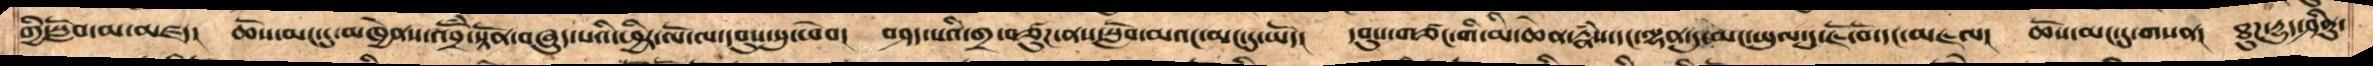གྱི་སློབ་མ་མཛད   ཆོས་མང་དུ་མཁྱེནས་འབྲོཾ་སྟོན་བཞུད་པའི་ཕྱིར་ལོ་ལ་དབུས་སུ་ཕེབ།    བཤད་པའི་གྲ་བཙུཌ་ནས་སློབ་མའང་མང་དུ་ཡོད།   དབུས་གཙང་གི་མི་ཆེན་རྣཾས་དང་ལྷན་དུ་མང་ཡུལ་དུ་ཇོ་བོ་དང་མཇལ།     ཆོས་མང་དུ་གསན།  ཐུཌ་དྱུད་ཤིནུ་
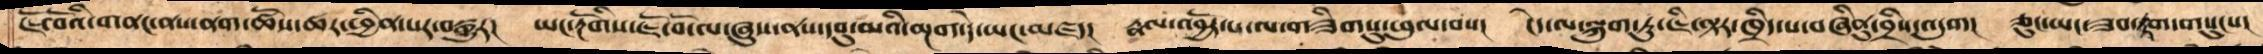ཇོ་བོའི་གནང་ནས་ནག་ཚོས་ཚར་ཕྱིན་པར་བསྒྱུར།    ཡང་རྔོགིས་ཇོ་བོ་ལ་ཞུས་ནས་དབུ་མའི་མྔག་དེ་ཡང་་མཛད།   རྣལ་འབྱོར་པ་ལ་གཟིགསུ་ཕུལ་བས།    ངེད་ལ་ལྐུག་ཏུ་ཇི་ལྟར་ཁྲིད་པ་བཞིནུ་བྲིས་འདུག།    ཅུང་ཡང་ཟབ་རྟག་གསུངས།
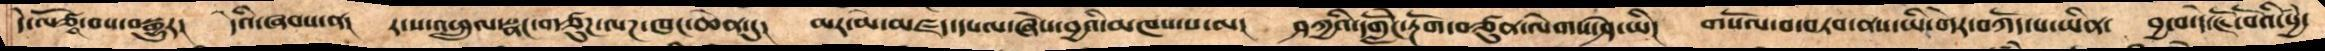དེ་ལོ་ཙཱ་བས་བསྒྱུར།   དེའི་ཞབས་ན།   ར་ས་འཕྲུལ་སྣང་གཙུཌ་ལཌ་ཁང་ཆེན་དུ།   མར་མེ་མཛད་དཔལ་ཞེས་བྱའི་མཁས་པ་ལ།   ཤཀྱའི་དགློེང་རྔོག་བཙུན་ལེགས་ཤེ་ཡིས།   གསོལ་བ་བཏབ་ནས་ཡི་གེར་བཀོད་པ་ཡིན།   བྱ་བ་དེ་ཇོ་བོའི་སྱཾ་
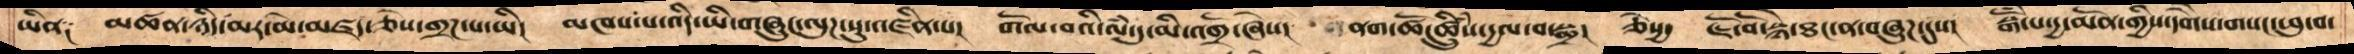ཡིན༑   མཚན་ཉིད་མར་མེ་མཛད་ཅེས་གྲཌ་པ་ཡི།   མཁས་པ་འདི་ཡི་གཞུང་ལུཌ་སུ་འཛིན་པ།   གོལ་བའི་ལཾ་དུ་མི་འགྲོ་ཞེས།   ནག་ཚོ་ཚྲིུཾས་དྱལ་བ་སྨྲ།  ཅེསྱ་  ཇོ་བོ་སྙེ་ཐང་ན་བཞུཌ་དུས།   སྒོཾ་པ་དྱ་མོན་གྱིས་དགཻས་གསང་ཕུ་བ་
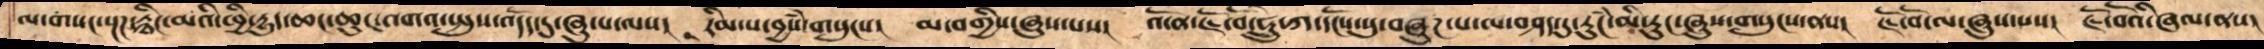ལ་གསང་སྔཌ་རྙིང་མའི་ཕྱི་དྱུད་ཆང་ཆུང་འགའ་སྤུས་འདོད་དུ་ཞུས་པ་ལ།   རིམ་པ་བྱཾས་གསུངས།   མ་བགྱིས་ཞུས་པས།   འོ་ན་ཇོ་བོ་ཧྲེུ་ཀ་དངོས་སུ་བཞུཌ་པ་བཤད་དུ་རུངཾ་མི་རུང་ཞུས་གསུངས་ནས།   ཇོ་བོ་ལ་ཞུས་པས།   ཇོ་བོའི་ཞལ་ནས།
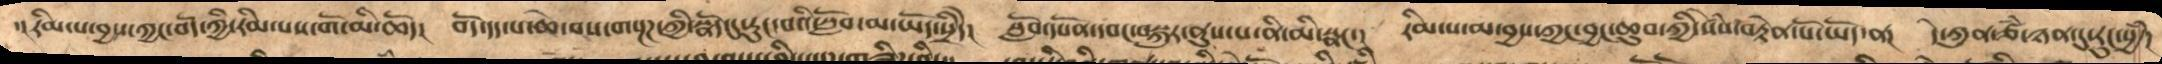་།རིམ་པ་བྱས་ཀྱང་བོད་ཀྱི་རིམ་པས་གོ་མི་ཆོད།   བོད་དད་པ་ཆེ་བས་གསྔཌ་ཀྱི་སྣོད་དུ་རུང་བའི་སློབ་མ་ཡོད་སྲིདེ།    སློབ་དཔོན་དབང་བསྐུར་ནུས་པ་ནི་མི་སྣང་།  རིམ་པ་མ་བྱས་ཀྱང་བྱང་ཆུབ་ཀྱི་སེཾས་བརྟེན་པོ་ཡོད་ན།   དེ་ཀུན་ཙཾ་ཉན་དུ་རུང་སྱཾ།
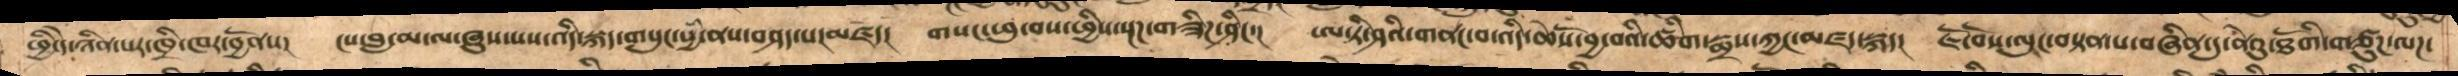ཕྱི་དེ་ཉིན་པར་ཁྲི་ཁར་བྱོནས།    ངས་བླ་མ་ལ་ཞུས་པས་འདི་སྐད་གསུང་སྱཾ་ནས་བཤད་པར་མཛད།    གསང་ཕུ་བས་ཕྱིས་སྔཌ་གཟིཌ་ཤིང་།   ཨ་ཏི་ཤའི་གནང་བ་འདི་ཆེསོ་བྱ་བའི་ཚིག་སྨྲས་ཀྱང་མཛད་སྐད།    ཇོ་བོས་ལུང་བསྟན་པ་བཞིན་དུ་ནེའུ་ཐོགི་གཙུཌ་ལཌ་
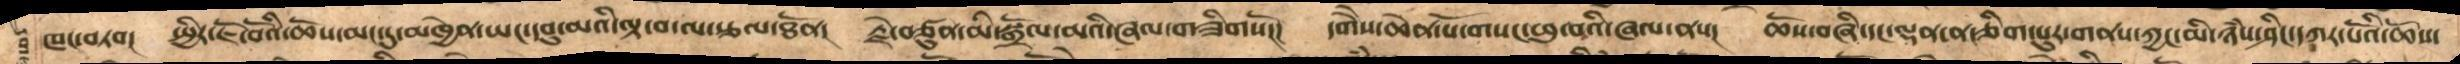ཁང་བཏབ།  སྤྱིར་ཇོ་བོའི་ཆོས་མང་དུ་མཁྱེན་ཡང་དབུ་མའི་ལྟ་བ་ལ་རྩལ་ཐོན།  རྗེ་བཙུན་མི་སྒྲོལ་མའི་ཞལ་གཟིགསོ།།།  དགཻས་ཆེན་པོ་གསང་ཕུ་བའི་ཞལ་ནས།  ཆོས་བཞི་དང་ལྡན་ན་ཅིག་པུར་གནས་ཀྱང་མི་ཉཾས་ཤིང་དཀར་པོའི་ཆོས་
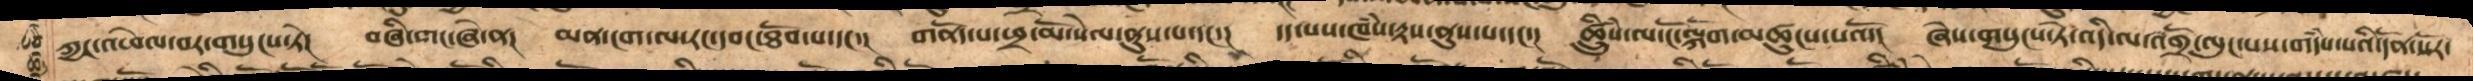ཀྱང་འཕེལ་བར་གསུངས་ཏེ། བཞི་གང་ཞེ་ན། མན་ངག་ལ་རང་དབང་ཐོབ་པ་དང་། གནོད་པ་ཕྲ་མོ་སེལ་ནུས་པ་དང་། དད་པས་ཁཾས་རྟས་ནུས་པ་དང་། ཚྲིུཾས་ལ་ངོ་ལྐོག་མཚུངས་པའོ། ཞེས་གསུངས་ཏེ་འདི་ལ་འགྲོ་ལུང་པས་གདཾས་པའི་དོན་པོར་
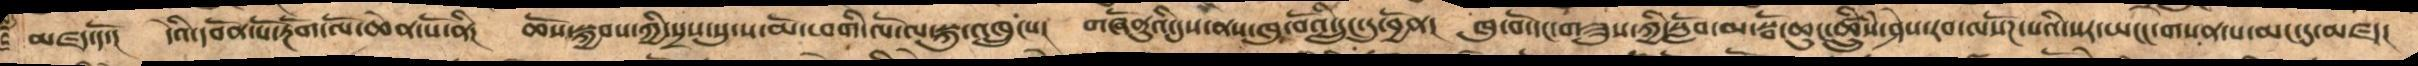མཛད་དོ།   དེའི་དབོན་པོ་རྔོག་ལོ་ཆེན་པོ་ནི།   ཆོས་སྐྱབས་ཀྱི་སྲས་སུ་ས་མོ་ཕགི་ལོ་ལ་སྐུ་འཁྲུངས།   གཞོནུའི་དུས་ནས་ཁུ་བོའི་དྲུང་དུ་བྱོན།    ཁུ་བོ་དང་གཟུས་ཀྱི་སློབ་མ་སྦོ་ཆུང་ཚྲིུཾས་ཤེསརབ་ལསོཌ་པའི་སར་ཡངང་གསན་པ་མང་དུ་མཛད
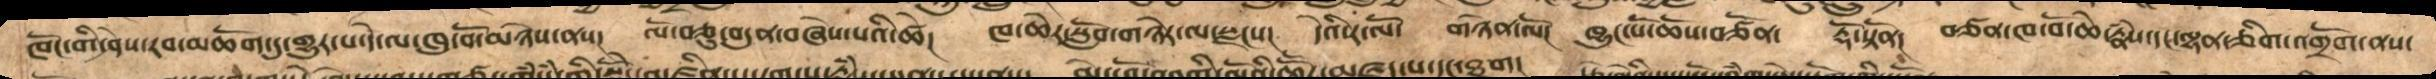ཁོང་གི་ཤེས་རབ་མཆོག་དུ་གྱུར་པ་དེ་ལ་ཁུ་བོ་མཉེས་ནས། ལོ་བཅུ་བདུན་བཞེས་པའི་ཚེ། ཁ་ཆེར་སློབ་གཉེར་ལ་སྫངས། དེའི་ར་ལོ་ གཉེན་ལོ། ཁྱུང་པོ་ཆོས་བརྩོན། རྡོ་སྟོན། བཙན་ཁ་བོ་ཆེ་རྣཾས་དང་ལྷན་ཅིག་འགྲོག་ནས་
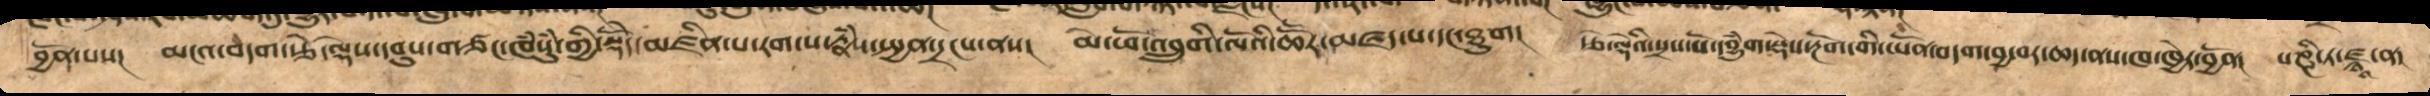བྱོན་པས། མངའ་བདག་རྩེ་ལྡེས་དབུས་གཙང་ཁཾསུཾ་གྱི་སྡོེད་འཛིན་པ་རགས་པ་རྣཾས་སྤྱན་དྲངས་ནས། མེ་ཕོ་འབྲུགི་ལོའི་ཆཽར་མཛད་པ་དང་ཐུག། རྩེ་ལྡེའི་སྲས་པོ་དབྱུཾག་སྡེས་རྔོག་གི་ཡོན་བདག་བྱ་བར་ཆད་ནས་ཁ་ཁྱེར་བྱོན། པཎྜི་ཏ་ཛྙཱ་ན་
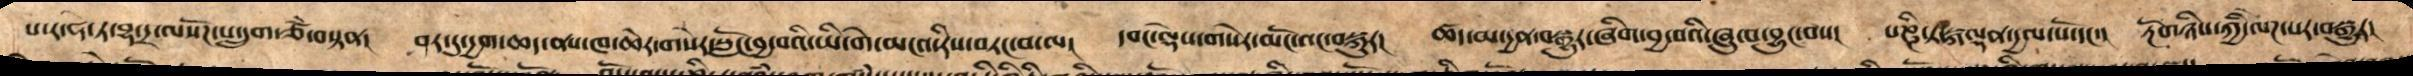པ་ར་ཧི་ཏ་བྷ་དྲ་ལསོཌ་པ་དྲུག་ཙཾ་བསྟན།   ཤར་དུ་དྱག་ཆད་ནས་ཁ་ཆེར་གསེར་སློང་བྱ་བའི་ཡི་གེ་མངའ་རིས་སུ་བཏང་བ་ལས།    དབང་ལྡེས་གསེར་མངོ་འངབསྐུར།   ཚད་མ་དྱན་བསྒྱུར་ཞིག་བྱ་བའི་ཞུ་བ་བྱུང་བས།   པཎྜི་ཏ་སྐལྡན་དྱལ་པོ་དང་།   རྔོགཉིས་ཀྱི་ལེཌ་པར་བསྒྱུར།
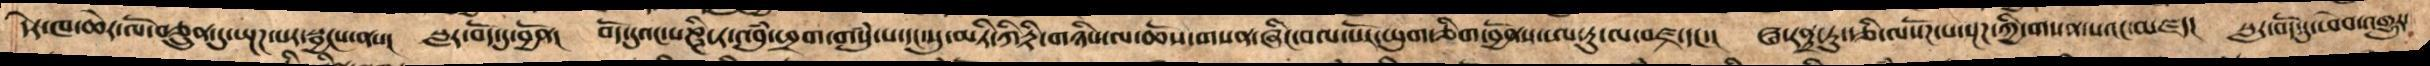དེར་ཁ་ཆེར་ལོ་བཅྲུན་དུ་སྔཌ་པར་སྦྱངས་ནས།     སླར་བོད་དུ་བྱོན།   བོད་དུའང་པཎྜི་ཏ་འབུཾ་ཕྲག་གསུཾ་པ་དང་སུ་མ་ཏི་ཀིརྟི་གཉིས་ལ་ཆོས་གསན་ཞིང་བལ་པོར་ཡུག་ཅིག་བྱོནས་ཨ་ཏུ་ལ་བཛྲ་དང་།   ཝ་རནྟྲ་རུ་ཅི་ལསོཌ་པ་སྔཌ་ཀྱི་གསན་པའང་མཛད།   སླར་བོད་དུ་ཕེབས་འགྱུར་
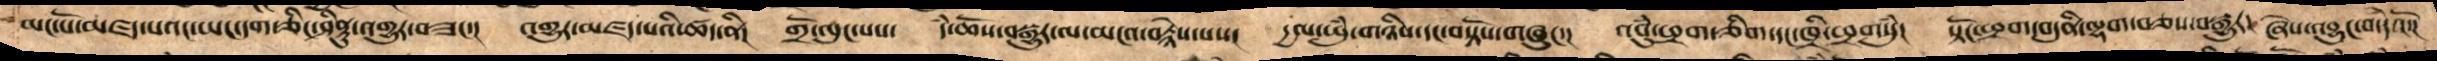མང་པོ་མཛད་པའང་ཡང་དག་ཅིང་ཤིནྟུ་འགྱུར་བཟང་།   འགྱུར་མཛད་པའི་ཚད་ནི།   གྲོ་ལུང་པས།   དཾ་ཆོས་བསྒྱུར་ལ་མངའ་བརྙེས་པས།   དྱལ་ཡུཾ་གཉིས་དང་བསྟོས་གཞུང་།   འབུཾ་ཕྲག་ཅིག་དང་ཁྲི་ཕྲགསུཾ།   སྟོང་ཕྲག་བདུནི་ལྷག་བཅས་བསྒྱུར།   ཞེས་འབྱུང་བ་དེའོ།
